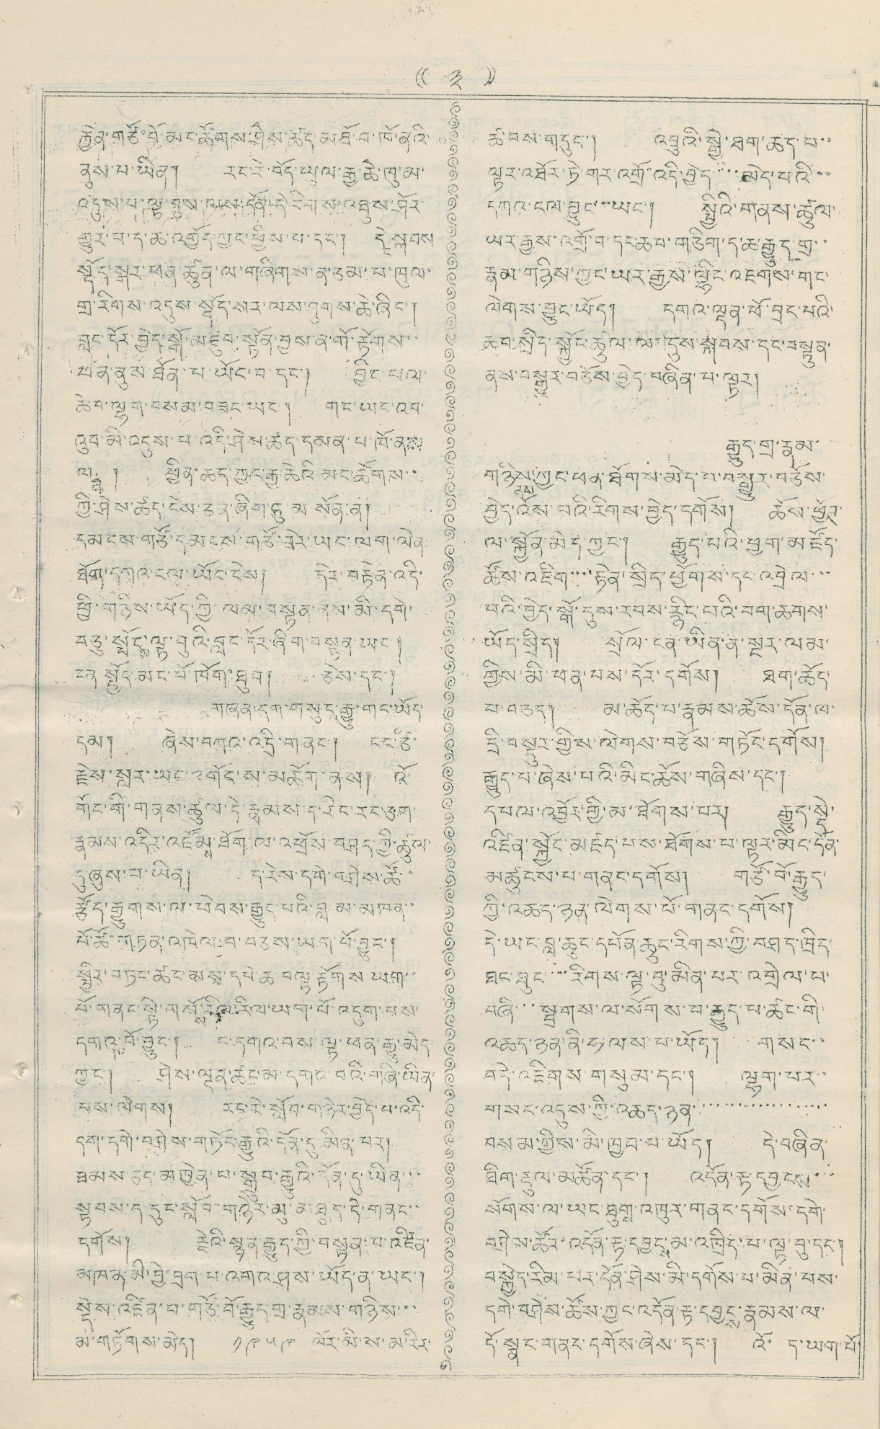( ༣ )
རྐྱེན་གཙོ་བོ་མང་ཚོགས་ཤེས་ཚད་མཐོ་བ་ཁོ་ནའི་
ནུས་པ་ཡིན། རང་རེ་བོད་ཡུལ་རྒྱ་ཆེ་ཁུ་མ་
འདུས་པ་ལྟ་བུས་ལས་དོན་དེ་རིགས་འཐུས་ཤོར་
གྱུར་བ་ད་ཆ་འགྱོད་ཀྱང་ཕྱིས་པ་དང་། དེ་སྐབས་
སྟོད་སྒར་ཕན་ཚུན་ལ་གཞིགས་ན་རམ་པ་ཁུལ་
གྲ་རིགས་འདུས་སྡོད་སར་ལས་ཤུགས་ཆེ་ཞིང་།
གླང་དོར་བྱེད་སྒོ་མཛུབ་སྟོན་བྱས་ན་གོ་རྟོགས་་
ཕན་ནུས་ཐོན་པ་ཡོང་བ་དང་། བྱང་པལ་
ཆེ་བ་ལྷག་བསམ་བཟང་ཡང་། གང་ཡང་འབ་
འུབ་མི་འདུས་པ་འདི་ཤེས་ཚད་དམན་པ་ཁོ་ནས་
ལན ། ཕྱིན་ཆད་ཀྱང་རྒྱ་ཆེའི་མང་ཚོགས་་
ཀྱི་ཤེས་ཚད་ངེས་ཅན་ཞིག་ཏུ་མ་སོན་ན།
དམངས་གཙོ་དམངས་གཙོ་ཟེར་ཡང་ལག་ལེན་
ཐོག་དཀའ་ངལ་ཡོང་ངེས། དེར་བརྟེན་འདི་
ཕྱི་གཉིས་ཡོད་ཀྱི་ལམ་བསྟན་ནས་མི་དགེ་
བཅུ་སྤོངས་ལྟ་བུའི་བླང་དོར་ཞིག་བསྟན་ཡང་།
ངན སྤྱོད་མང་པོ་ཁོག་ཐུབ། ཅེས་དང་།
གཞན་དག་གསུང་རྒྱུ་གང་ཡོད་
དམ། ཞེས་བཀའ་འདྲི་གནང་། ངང་ཙི་
རྗེས་སླར་ཡང་༸གོང་མ་མཆོག་ནས། འོ་
གོང་གི་གནས་ཚུལ་ཏེ་རྣམས་ད་རིང་རང་ཅག་
རྣམས་འདིར་འཛོམས་ཐོག་ལ་འཕྲོས་བཤད་ཀྱི་ཚུལ་
དུ་ཞུས་པ་ཡིན། ད་རེས་དགེ་བཤེས་ཚོ་་
རྩོད་རྒྱུགས་ལ་ཕེབས་རྒྱུད་པའི་བླ མ་མཁན་་
པོ་ཚོ་གཏན་འཁེལ་བ་བཅས་ཡག་པོ་བྱུང་།
སྤྱིར་བཏང་ཚང་མས་དཔེ་ཆ་བལྟ་རྟོགས ཡག་་
པོ་གནང་སྟེ་གསོས་རིལ་རིལ་ཡག་པོ་འདུག་པས་
དགའ་བོ་བྱུང་། ང་དགའ་བས་ལྟ་ཕན་རྒྱུ་མེད་
ཀྱང་། ཤེས་ལྡན་ཚང་མ་དགའ་བའི་གཞི་ཡིན་
པས་ལེགས། རང་རེ་སློབ་གཉེར་བྱེད་པ་འདི་
དག་དགེ་བཤེས་གཏོང་རྒྱུའི་དོན་དུ་མིན་པར།
ཐམས་ཅད་མཁྱེན་པ་སྒྲུབ་རྒྱུའི་དོན་དུ་ཡིན་་་
སྟབས་ད་དུང་སློབ་གཉེར་མུ་མཐུད་དེ་གནང་་
དགོས། རྗེའི་སྟན་རྒྱུད་ཀྱི་བསྟན་པ་འཛིན་
མཁན་མི་བྱེ་བྲག་པ་འགའ་ཤས་ཡོད་ན་ཡང་།
སྡེས་འཛིན་བ་གཙོ་བོ་རྒྱུད་གྲ་རྣམས་གཉིས་་་
མ་གཏོགས་མེད། ༡༩༥༩ ལོར་མི་ས་མ་རིར་
ཚབས་གདུང་། འབྲུའི་སྒྱེ་ཐག་ཆད་པ་་
ལྟར་འཐོར་ཏེ་གར་འགྲོ་འདི་བྱེད་་་་མེད་པའི་་་
དཀའ་ངལ་བྱུང་་ཡང་། སྤྱིའི་གནས་ཚུལ་
ཡར་རྒྱས་འགྲོ་བ་དང་ཆབ་གཅིག་ད་ཆ་རྒྱུད་གྲ་་
རྣམ་གཉིས་ཀྱང་ཡར་རྒྱས་ལྷིང་འཇགས་གང་
ལེགས་བྱུང་ཡོད། དགའ་ལྡན་ཕོ་བྲང་པའི་
ཆབ་སྲིད་སྐྱོང་ཚུལ་ལ་དུས་སྐབས་དང་བསྟུན་
ནས་བསྒྱུར་བཅོས་བྱེད་བཞིན་པ་ལྟར།
རྒྱུད་གྲ་རྣམ་
གཉིས་ནས་ཀྱང་ཕན་ཐོགས་མེད་པ་བསྒྱུར་བཅོས་
བྱེད་འོས་བའི་རིགས་བྱེད་དགོས། ཆོས་ཕྱོཊ་
ལ་སྐྱོན་མེད་ཀྱང་། རྒྱུད་པའི་ཕྱག་མཛོད་
ཆོས་འཇིག་་་རྟེན་སྲིད་ཕྱོགས་དང་འབྲེལ་་་
བའི་བྱེད་སྒོ་དུས་རབས་རྙིང་པའི་བག་ཆགས་
ཡོད་སྲིད། སྲོལ་ངན་ཡིན་ན་སྔར་ལམ་
གྱིས་མི་ཕན་པས་དོར་དགོས། ཐག་ཆོད་
པ་བཅད། མ་ཆོད་པ་རྣམས་ཆོས་དོན་ལ་
དྲི་བསྡར་གྱིས་ལེགས་བཅེས་གཏོང་དགོས།
རྒྱུད་པ་ཞེས་པའི་མིང་ཆོས་གཞིས་དང་།
དཔལ་འབྱོར་གྱི་མ་ཐོགས་པར། རྒྱུད་སྤྱེ་
འཛིན་སྐྱོང་མཛད་པས་ཐོགས་པ་ལྟར་མིང་དོན་
མཚུངས་པ་གནང་དགོས། གཙོ་བོ་རྒྱུད་
ཀྱི་འཆད་ཉན་ལེགས་པོ་གནང་དགོས།
དེ་ཡང་བླ་ཆུང་དཔོན་ཆུང་རིགས་ཀྱི་བཤད་ཁྲིད་
ཐང་ཐུང་་རིགས་ལྟ་བུ་མིན་པར་འགྲེལ་པ་
བཞི་་་སྦྲགས་ལ་སོགས་པ་རྒྱུད་པ་ཚང་གི་
འཆད་ཉིན་ནི་ཧ་ལས་པ་ཡོད། གསང་་
བདེ་འཇིགས་གསུམ་དང་། ལྷག་པར་་
གསང་འདུས་ཀྱི་འཆད་ཉན་་་་་་་་་་་་་་་་་
བསམ་ཀྱིས་མི་ཁྱབ་པ་ཡོད། དེ་བཞིན་
ཐིག་རྡུལ་མཚོན་དང་། འདོན་རྟ་དབྱངས་་་
སོགས་ལ་ཡང་ཐུགས་འཁུར་གནང་དགོས་དགེ་
བཤེས་ཚོར་འདོན་རྟ་དབྱངྶ་མ་འཁྲིད་པ་ལྟ་བུ་དང་།
བསྐྱེད་རིམ་པར་དོན་ཤེས་མི་དགོས་པ་མིན་པས་
དགེ་བཤེས་ཚོས་ཀྱང་འདོན་རྟ་དབྱངྶ་རྣམས་ལ་
དོ་སྒང་གནང་དགོས་ཞེས་དང་། འོ་ད་ཡག་པོ།
